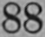88
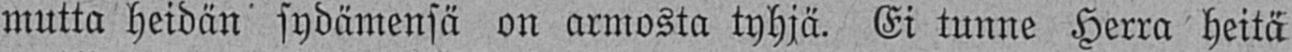mutta heidän sydämensä on armosta tyhjä. Ei tunne Herra heitä
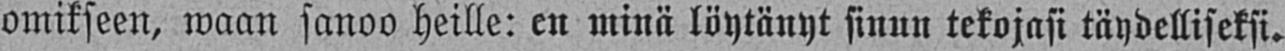omikseen, waan sanoo heille: en minä löytänyt sinun tekojasi täydelliseksi.
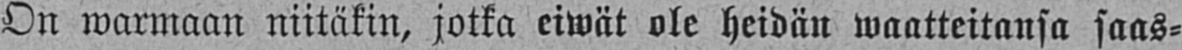On warmaan niitäkin, jotka eiwät ole heidän waatteitansa saas-
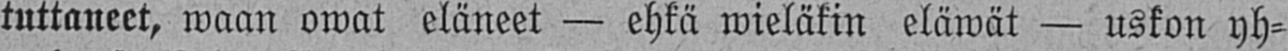tuttaneet, waan owat eläneet — ehkä wieläkin eläwät — uskon yh-
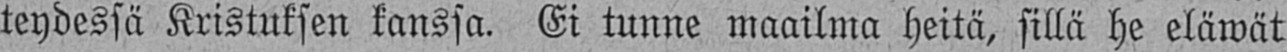teydessä Kristuksen kanssa. Ei tunne maailma heitä, sillä he eläwät
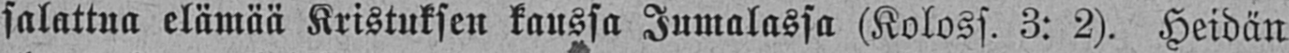salattua elämää Kristuksen kanssa Jumalassa (Koloss. 3: 2). Heidän
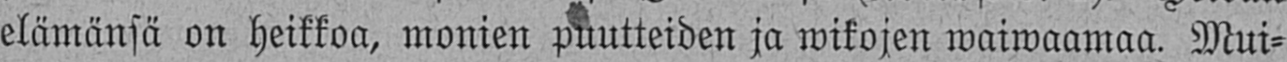elämänsä on heikkoa, monien puutteiden ja wikojen waiwaamaa. Mui-
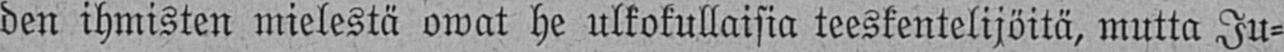den ihmisten mielestä owat he ulkokullaisia teeskentelijöitä, mutta Ju-
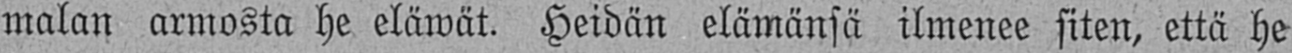malan armosta he eläwät. Heidän elämänsä ilmenee siten, että he
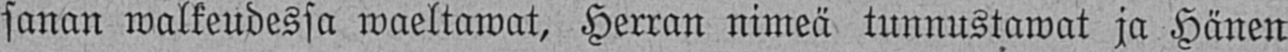sanan walkeudessa waeltawat. Herran nimeä tunnustawat ja Hänen
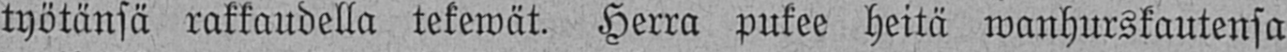työtänsä rakkaudella tekewät. Herra pukee heitä wanhurskautensa
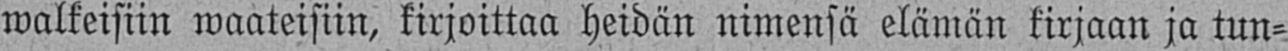walkeisiin waateisiin, kirjoittaa heidän nimensä elämän kirjaan ja tun-
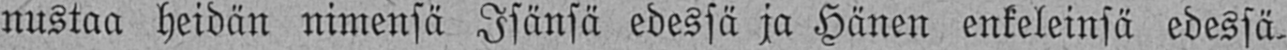nustaa heidän nimensä Isänsä edessä ja Hänen enkeleinsä edessä.
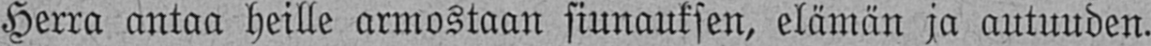Herra antaa heille armostaan siunauksen, elämän ja autuuden.
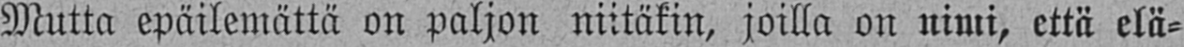Mutta epäilemättä on paljon niitäkin, joilla on nimi, että elä-
